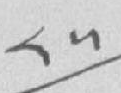༨༥
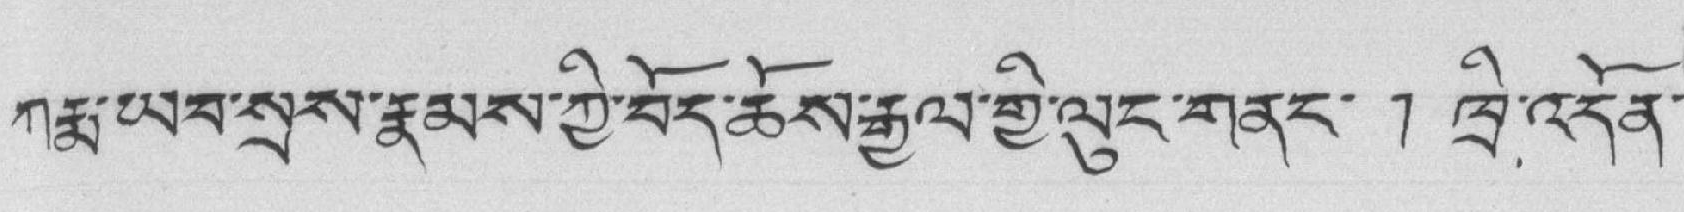ཀརྨ་ཡབ་སྲས་རྣམས་ཀྱི་བོད་ཆོས་རྒྱལ་གྱི་ལུང་གནང་ ། ཁྲི་འདོན་
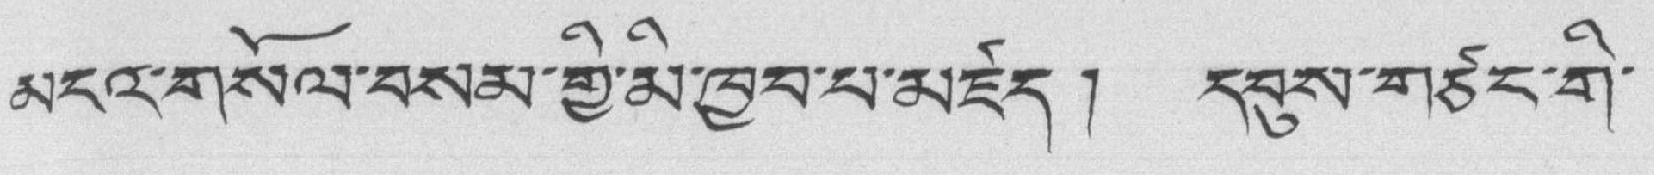མདའ་གསོལ་བསམ་གྱི་མི་ཁྱབ་པ་མཛད། དབུས་གཙང་གི་
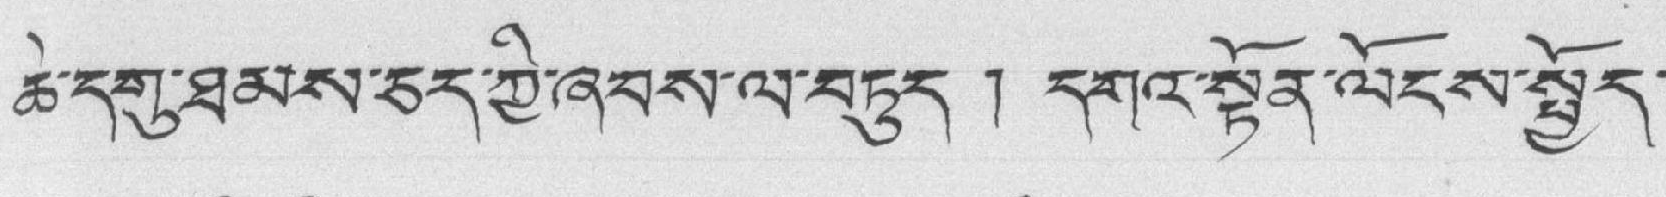ཆེ་དགུ་ཐམས་ཅད་ཀྱི་ཞབས་ལ་བཏུད ། དགའ་སྟོན་ལོངས་སྤྱོད་
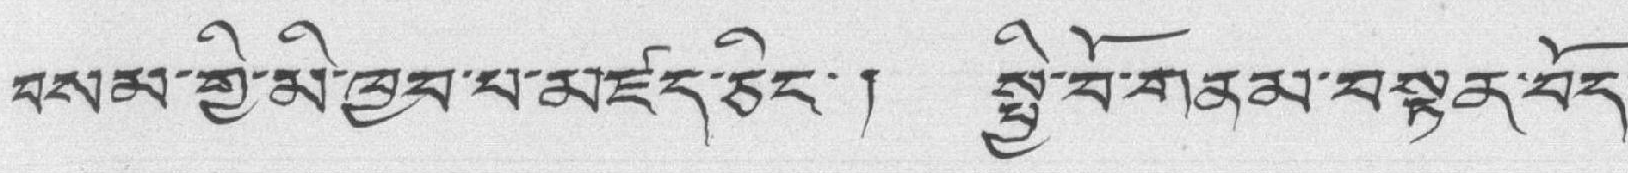བསམ་གྱི་མི་ཁྱམ་པ་མཛད་ཅིང་། སྤྱི་བོ་གནམ་བསྟན་བོད་
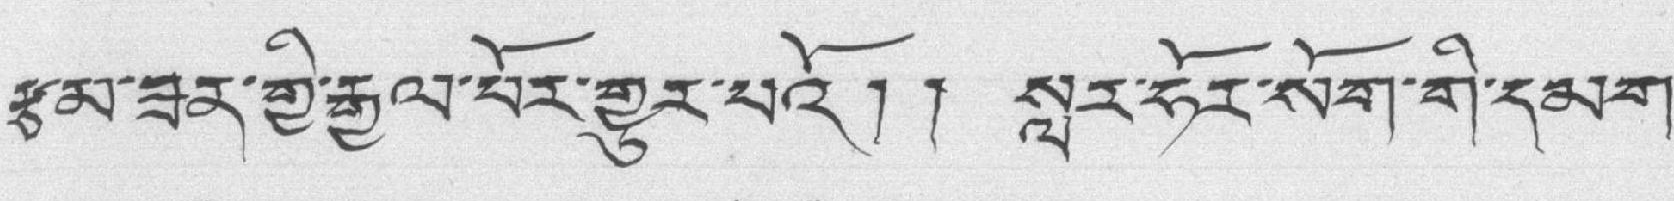རྩམ་ཟན་གྱི་རྒྱལ་པོར་གྱུར་པའོ།། སླར་ཧོར་སོག་གི་དམག་
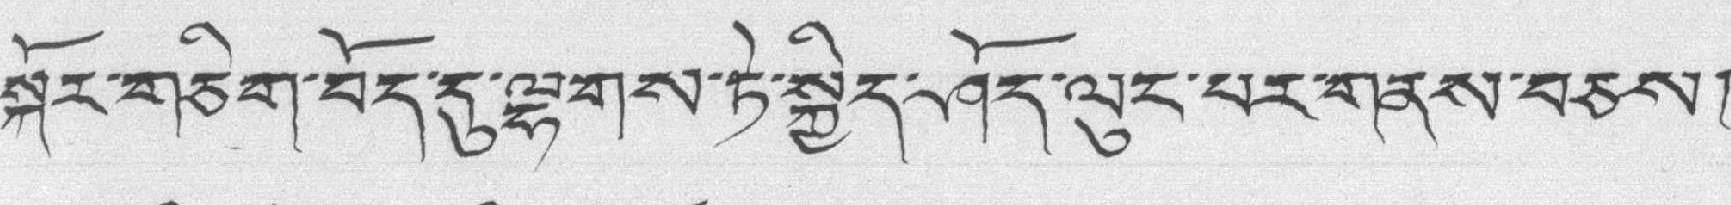སྐོར་གཅིག་བོད་དུ་ལྷགས་ཏེ་སྐྱིད་ཤོད་ལུང་པར་གནས་བཅས།
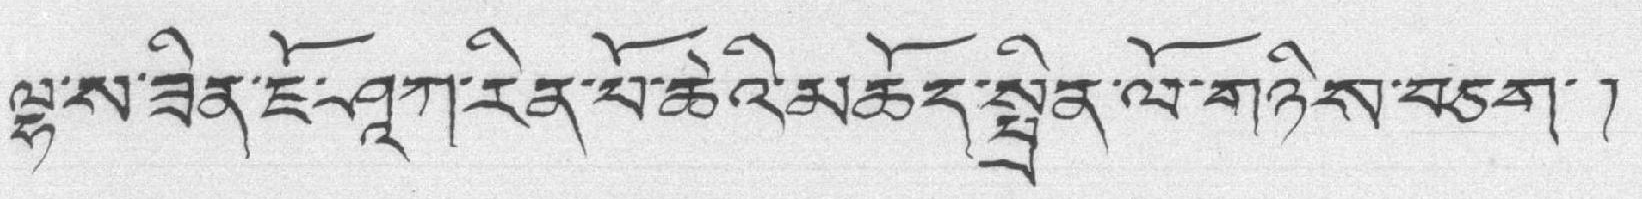ལྷ་ས་ཟིན་ཇོ་ཤླཀ་རིན་པོ་ཆེའི་མཆོད་སྤྲིན་ལོ་གཉིས་བཅག་།
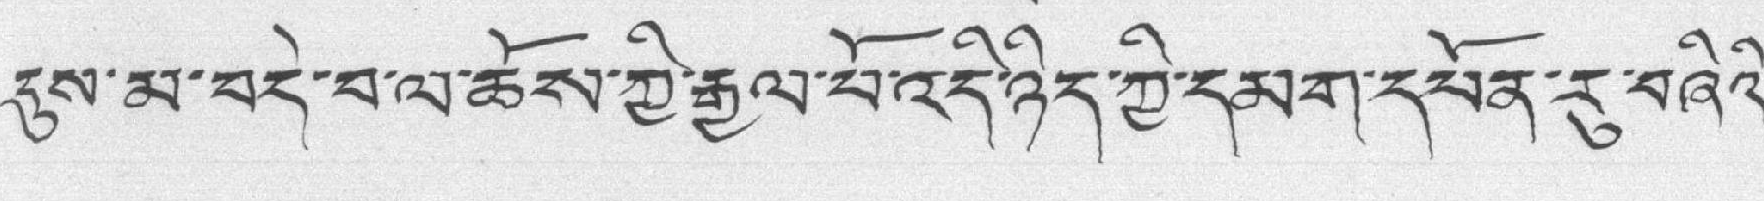དུས་མ་བདེ་བ་ལ་ཆོས་ཀྱི་རྒྱལ་པོ་འདི་ཉིད་ཀྱི་དམག་དཔོན་རུ་བཞིའི་
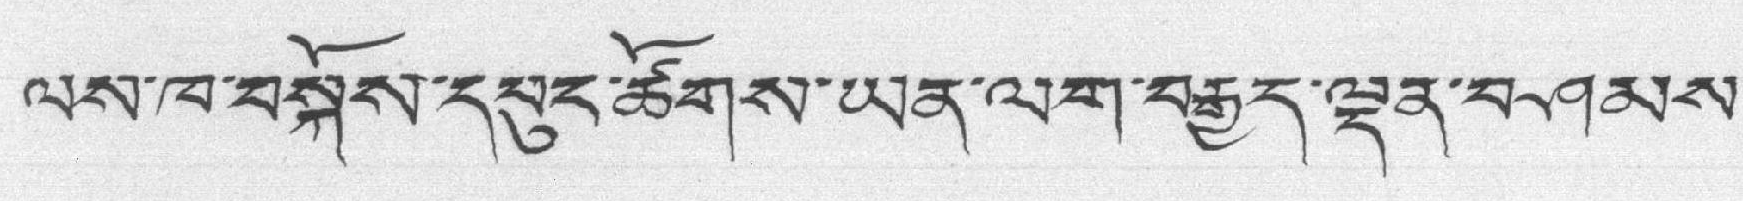ལས་ཁ་བསྐོས་དཔུང་ཚོགས་ཡིན་ལག་བརྒྱད་ལྡན་བཤམས་
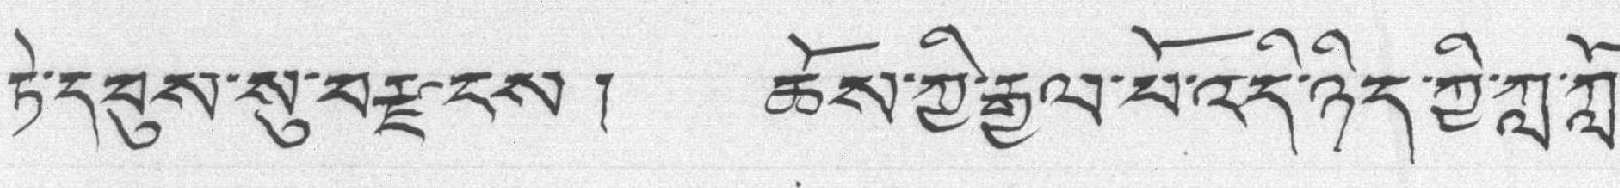ཏེ་དབུས་སུ་བརྫ་ངས། ཆོས་ཀྱི་རྒྱལ་པོ་འདི་ཉིད་ཀྱི་ཀླ་ཀློ་
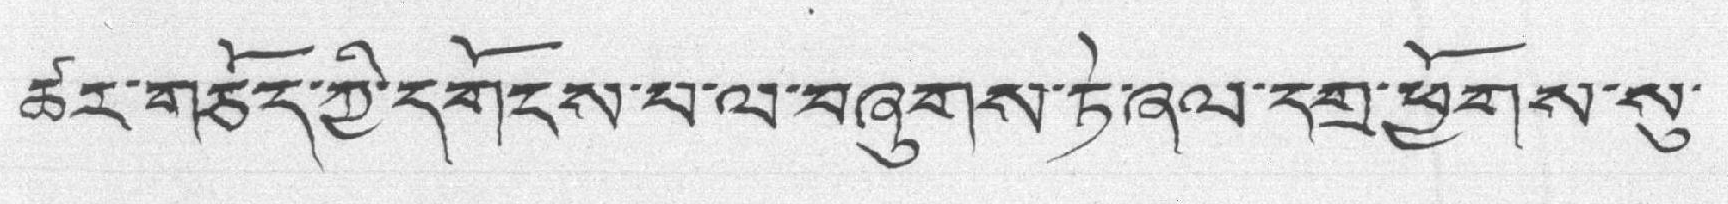ཚར་གཅོད་ཀྱི་དགོངས་པ་ལ་བཞུགས་ཏེ་ཞལ་དགྲ་ཕྱོགས་སུ་
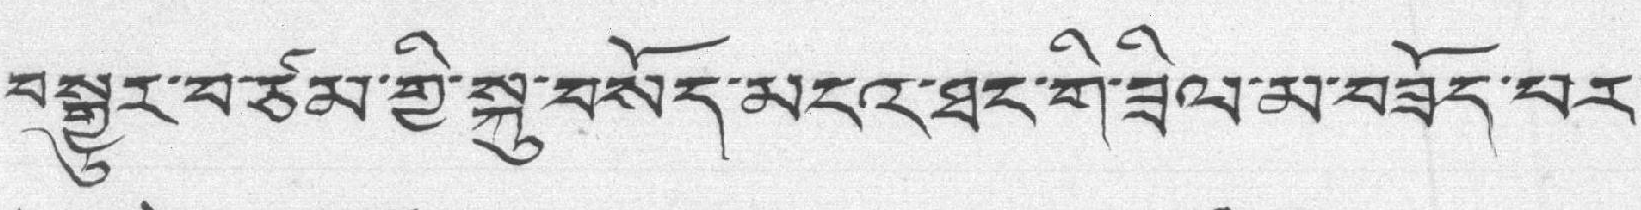བསྒྱུར་བཙམ་གྱི་སྐུ་བསོད་མངའ་ཐང་གི་ཟིལ་མ་བཟོད་པར་
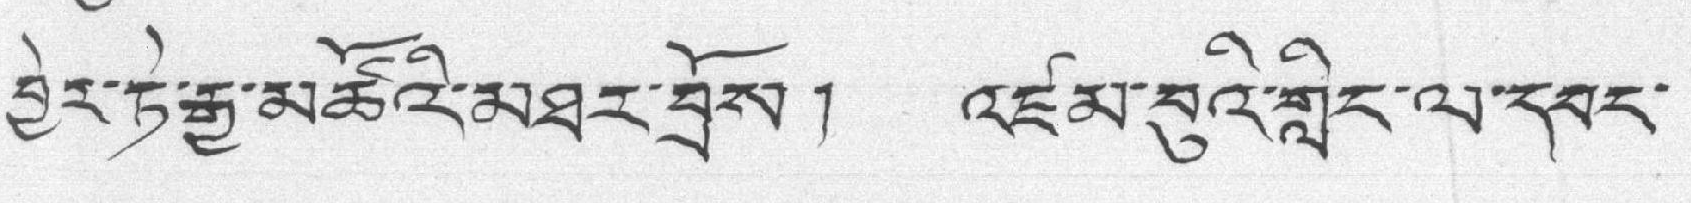བྱེར་ཏེ་རྒྱ་མཚོའི་མཐར་བྲོས། འཛམ་བུའི་གླིང་ལ་དབང་
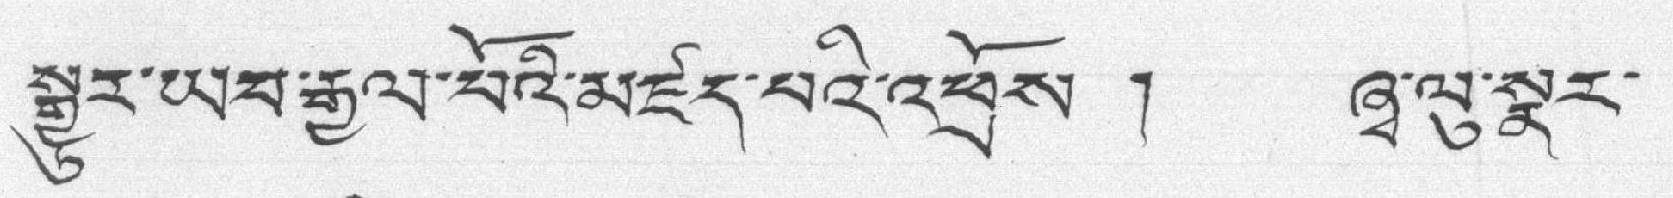སྒྱུར་ཡར་རྒྱལ་པོའི་མཛད་པའི་འཕྲོས ། ཞྭ་ལུ་སྣར་
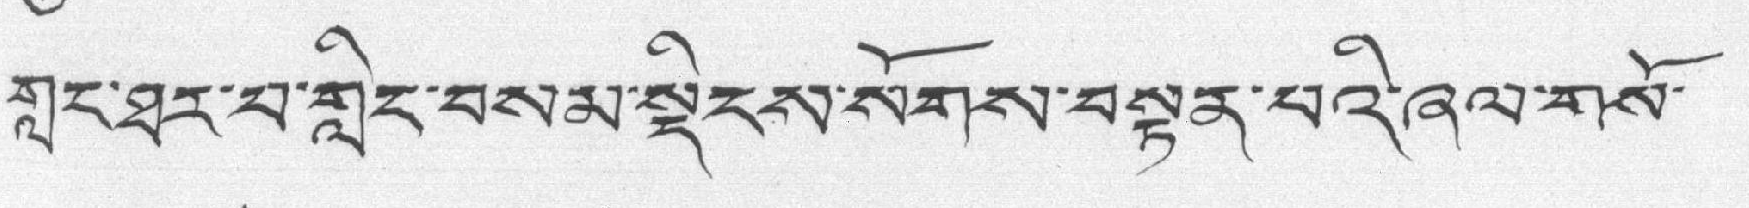གླང་ཐར་བ་གླིང་བསམ་སྡིངས་སོགས་བསྟན་པའི་ཞལ་གསོ་
